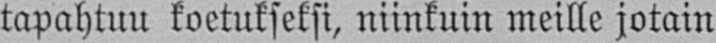tapahtuu koetukseksi, niinkuin meille jotain
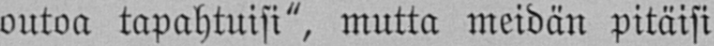outoa tapahtuisi", mutta meidän pitäisi
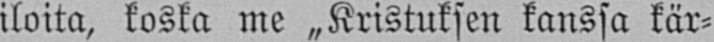iloita, koska me „Kristuksen kanssa kär-
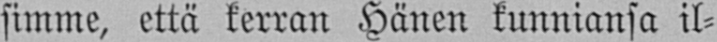simme, että kerran Hänen kunniansa il-
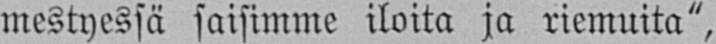mestyessä saisimme iloita ja riemuita",
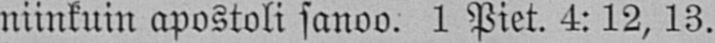niinkuin apostoli sanoo. 1 Piet. 4:12,13.
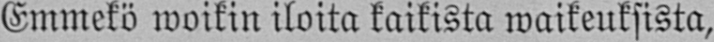Emmekö woikin iloita kaikista waikeuksista,
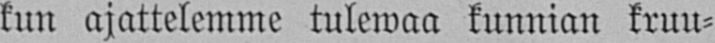kun ajattelemme tulewaa kunnian kruu-
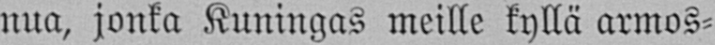nua, jonka Kuningas meille kyllä armos-
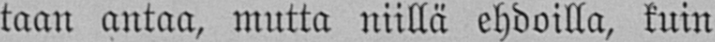taan antaa, mutta niillä ehdoilla, kuin
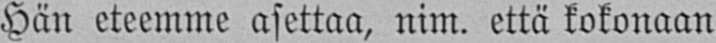Hän eteemme asettaa, nim. että kokonaan
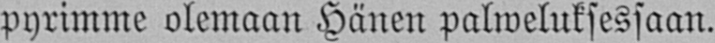pyrimme olemaan Hänen palweluksessaan.
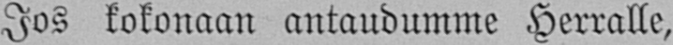Jos kokonaan antaudumme Herralle,
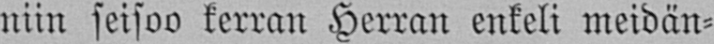niin seisoo kerran Herran enkeli meidän-
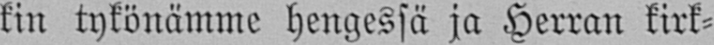kin tykönämme hengessä ja Herran kirk-
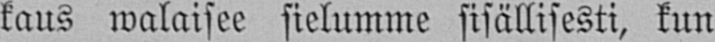kaus walaisee sielumme sisällisesti, kun
